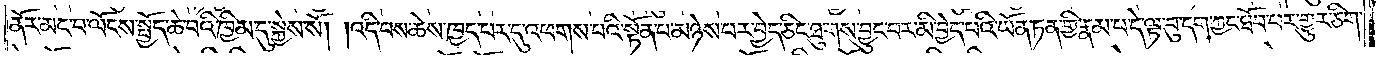ནོར་མང་བ་ལོངས་སྤྱོད་ཆེ་བའི་ཁྱིམ་དུ་སྐྱེས་སོ། །འདི་བས་ཆེས་ཁྱད་པར་དུ་འཕགས་པའི་སྟོན་པ་མཉེས་པར་བྱེད་ཅིང་ཐུགས་བྱུང་བར་མི་བྱེད་པའི་ཡོན་ཏན་གྱི་རྣམ་པ་དེ་ལྟ་བུ་དག་ཀྱང་ཐོབ་པར་གྱུར་ཅིག་
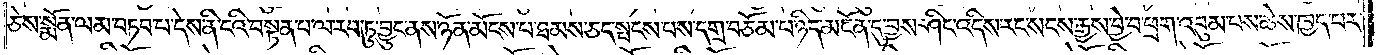ཅེས་སྨོན་ལམ་བཏབ་པ་དེས་ནི་ངའི་བསྟན་པ་ལ་རབ་ཏུ་བྱུང་ནས་ཉོན་མོངས་པ་ཐམས་ཅད་སྤངས་པས་དགྲ་བཅོམ་པ་ཉིད་མངོན་དུ་བྱས་ཤིང་འདིས་རང་སངས་རྒྱས་བྱེ་བ་ཕྲག་འབུམ་པས་ཆེས་ཁྱད་པར་
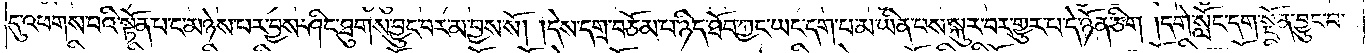དུ་འཕགས་པའི་སྟོན་པ་ང་མཉེས་པར་བྱས་ཤིང་ཐུགས་བྱུང་བར་མ་བྱས་སོ། །དེས་དགྲ་བཅོམ་པ་ཉིད་ཐོབ་ཀྱང་ཡང་དག་པ་མ་ཡིན་པས་སྐུར་བར་གྱུར་པ་དེ་ཉོན་ཅིག །དགེ་སློང་དག་སྔོན་བྱུང་བ་
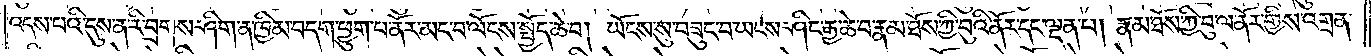འདས་པའི་དུས་ན་རི་བྲགས་ཤིག་ན་ཁྱིམ་བདག་ཕྱུག་པ་ནོར་མང་བ་ལོངས་སྤྱོད་ཆེ་བ། ཡོངས་སུ་བཟུང་བ་ཡངས་ཤིང་རྒྱ་ཆེ་བ་རྣམ་ཐོས་ཀྱི་བུའི་ནོར་དང་ལྡན་པ། རྣམ་ཐོས་ཀྱི་བུ་ལ་ནོར་གྱིས་འགྲན་
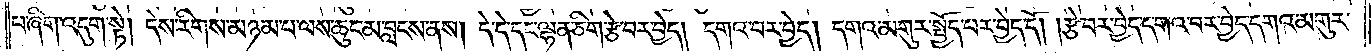པ་ཞིག་འདུག་སྟེ། དེས་རིགས་མཉམ་པ་ལས་ཆུང་མ་བླངས་ནས། དེ་དེ་དང་ལྷན་ཅིག་རྩེ་བར་བྱེད། དགའ་བར་བྱེད། དགའ་མགུར་སྤྱོད་པར་བྱེད་དོ། །རྩེ་བར་བྱེད་དགའ་བར་བྱེད་དགའ་མགུར་
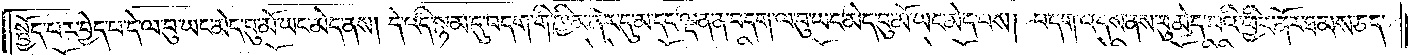སྤྱོད་པར་བྱེད་པ་དེ་ལ་བུ་ཡང་མེད་བུ་མོ་ཡང་མེད་ནས། དེ་འདི་སྙམ་དུ་བདག་གི་ཁྱིམ་ནོར་དུ་མ་དང་ལྡན་ན་བདག་ལ་བུ་ཡང་མེད་བུ་མོ་ཡང་མེད་པས། བདག་འདས་ནས་བུ་མེད་པའི་ཕྱིར་ནོར་ཐམས་ཅད་
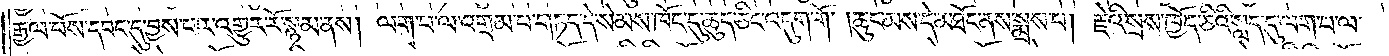རྒྱལ་པོས་དབང་དུ་བྱས་པར་འགྱུར་རོ་སྙམ་ནས། ལག་པ་ལ་འགྲམ་པ་གཏད་དེ་སེམས་ཁོང་དུ་ཆུད་ཅིང་འདུག་གོ །ཆུང་མས་དེ་མཐོང་ནས་སྨྲས་པ། རྗེའི་སྲས་ཁྱོད་ཅིའི་སླད་དུ་ལག་པ་ལ་
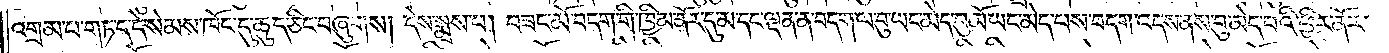འགྲམ་པ་གཏད་དེ་སེམས་ཁོང་དུ་ཆུད་ཅིང་བཞུགས། དེས་སྨྲས་པ། བཟང་མོ་བདག་གི་ཁྱིམ་ནོར་དུ་མ་དང་ལྡན་ན་བདག་ལ་བུ་ཡང་མེད་བུ་མོ་ཡང་མེད་པས་བདག་འདས་ནས་བུ་མེད་པའི་ཕྱིར་ནོར་
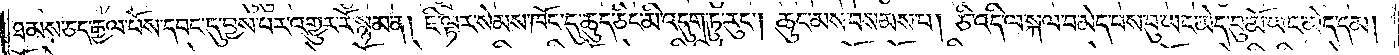ཐམས་ཅད་རྒྱལ་པོས་དབང་དུ་བྱས་པར་འགྱུར་རོ་སྙམ་ན། ཇི་ལྟར་སེམས་ཁོང་དུ་ཆུད་ཅིང་མི་འདུག་ཏུ་རུང༌། ཆུང་མས་བསམས་པ། ཅི་འདི་ལ་སྐལ་བ་མེད་པས་བུ་ཡང་མེད་བུ་མོ་ཡང་མེད་དམ།
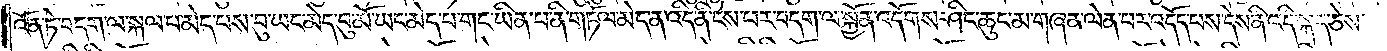འོན་ཏེ་བདག་ལ་སྐལ་པ་མེད་པས་བུ་ཡང་མེད་བུ་མོ་ཡང་མེད་པ་གང་ཡིན་པ་ནི་གཏོལ་མེད་ན་འདི་ནི་ངེས་པར་བདག་ལ་སྐྱོན་འདོགས་ཤིང་ཆུང་མ་གཞན་ལེན་པར་འདོད་པས་དེས་ནི་འདི་སྐད་ཅེས་
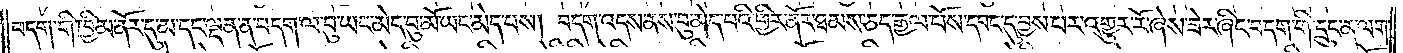བདག་གི་ཁྱིམ་ནོར་དུ་མ་དང་ལྡན་ན་བདག་ལ་བུ་ཡང་མེད་བུ་མོ་ཡང་མེད་པས། བདག་འདས་ནས་བུ་མེད་པའི་ཕྱིར་ནོར་ཐམས་ཅད་རྒྱལ་པོས་དབང་དུ་བྱས་པར་འགྱུར་རོ་ཞེས་ཟེར་ཞིང་བདག་གི་དྲུང་ན་ལག་
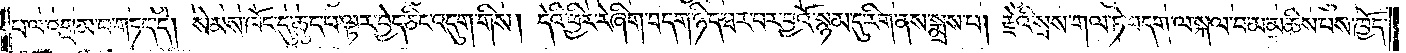པ་ལ་འགྲམ་པ་གཏད་དེ། སེམས་ཁོང་དུ་ཆུད་པ་ལྟར་བྱེད་ཅིང་འདུག་གིས། དེའི་ཕྱིར་རེ་ཞིག་བདག་ཉིད་ཐར་བར་བྱའོ་སྙམ་དུ་རིག་ནས་སྨྲས་པ། རྗེའི་སྲས་གལ་ཏེ་བདག་ལ་སྐལ་པ་མ་མཆིས་པས་ཁྱོད་
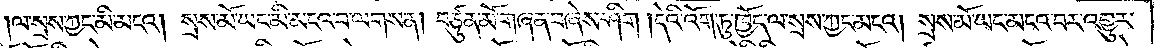ལ་སྲས་ཀྱང་མི་མངའ། སྲས་མོ་ཡང་མི་མངའ་བ་ལགས་ན། བཙུན་མོ་གཞན་བཞེས་ཤིག །དེའི་འོག་ཏུ་ཁྱོད་ལ་སྲས་ཀྱང་མངའ། སྲས་མོ་ཡང་མངའ་བར་འགྱུར་
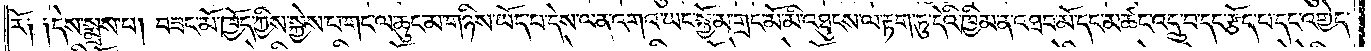རོ༑ ༑དེས་སྨྲས་པ། བཟང་མོ་ཁྱོད་ཀྱིས་སྐྱེས་པ་གང་ལ་ཆུང་མ་གཉིས་ཡོད་པ་དེས་ལན་འགའ་ཡང་སྐྱོ་མ་གྲང་མོ་མི་འཐུངས་ལ་རྟག་ཏུ་དེའི་ཁྱིམ་ན་འཐབ་མོ་དང་མཚང་འདྲུ་བ་དང་རྩོད་པ་དང་འགྱེད་
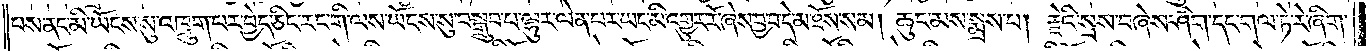པས་ནང་མི་ཡོངས་སུ་འཁྲུག་པར་བྱེད་ཅིང་རང་གི་ལས་ཡོངས་སུ་བསྒྲུབ་པ་ལྷུར་ལེན་པར་ཡང་མི་འགྱུར་རོ་ཞེས་བྱ་བ་དེ་མ་ཐོས་སམ། ཆུང་མས་སྨྲས་པ། རྗེའི་སྲས་བཞེས་ཤིག་དང་གལ་ཏེ་རེ་ཞིག་
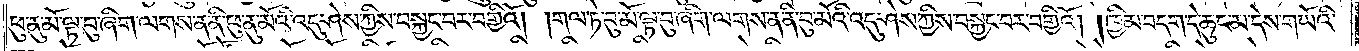ཕུ་ནུ་མོ་ལྟ་བུ་ཞིག་ལགས་ན་ནི་ཕུ་ནུ་མོའི་འདུ་ཤེས་ཀྱིས་བསྐྱང་བར་བགྱིའོ། །གལ་ཏེ་བུ་མོ་ལྟ་བུ་ཞིག་ལགས་ན་ནི་བུ་མོའི་འདུ་ཤེས་ཀྱིས་བསྐྱང་བར་བགྱིའོ། །ཁྱིམ་བདག་དེ་ཆུང་མ་དེས་གཡོའི་
